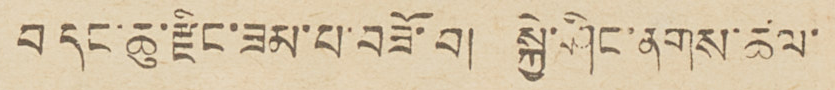བ དང་ཆུ་རྫིང་ཟམ་པ་བཟོ་བ། སྐྱེ་ཤིང་ནགས་ཚལ་
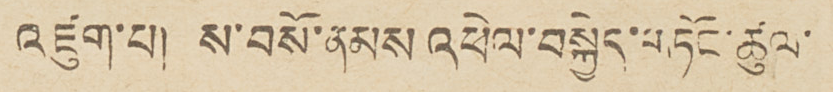འཛུག་པ། ས་བསོ་ནམས འཕེལ་བསྐྱེད་གཏོང་ཚུལ་
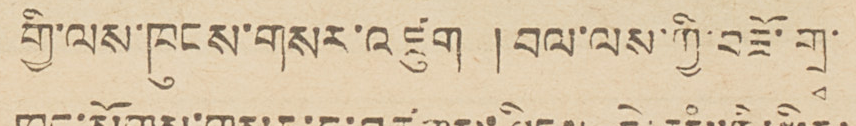གྱི་ལས་ཁུངས་གསར་འཛུག །བལ་ལས་ཀྱི་བཟོ་གྲྭ་
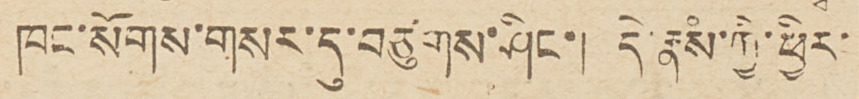ཁང་སོགས་གསར་དུ་བཙུགས་ཤིང་། དེ་རྣསཾ་ཀྱི་ཕྱིར་
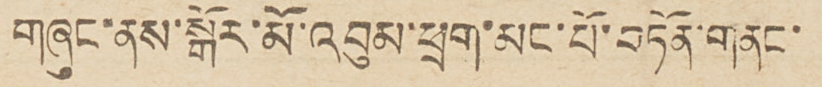གཞུང་ནས་སྒོར་མོ་འབུམ་ཕྲག་མང་པོ་བཏོན་གནང་
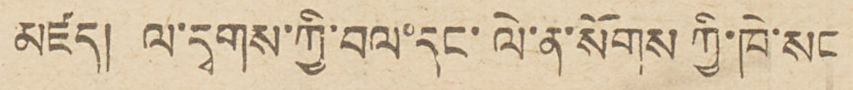མཛད། ལ་དྭགས་ཀྱི་བལ་དང་ལེ་ན་སོགས ཀྱི་ཁེ་སང
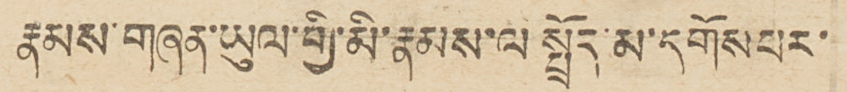རྣམས་གཞན་ཡུལ་གྱི་མི་རྣམས་ལ སྤྲོད་མ་དགོས པར་
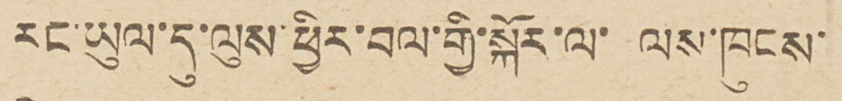རང་ཡུལ་དུ་ལུས་ཕྱིར་བལ་གྱི་སྐོར་ལ་ ལས་ཁུངས་
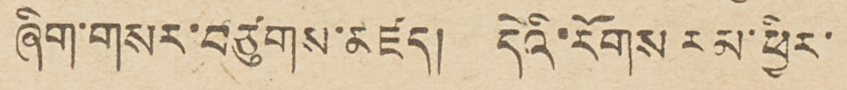ཞིག་གསར་བཙུགས་མཛད། དེའི་རོགས རམ་ཕྱིར་
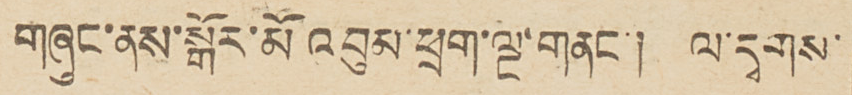གཞུང་ནས་སྒོར་མོ འབུམ་ཕྲག་ལྔ་གནང་། ལ་དྭགས་
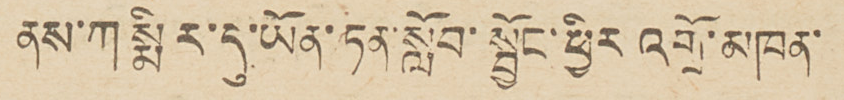ནས་ཀསྨིར་དུ་ཡོན་ཏན་སློབ་སྦྱོང་ཕྱིར འགྲོ་མཁན་
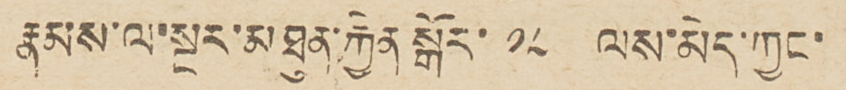རྣམས་ལ་སྔར་མཐུན་རྐྱེན སྒོར་ ༡༨ ལས་མེད་ཀྱང་
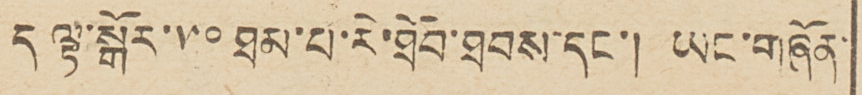ད ལྟ་སྒོར་༥༠ ཐམ་པ་རེ་ཐོབ་ཐབས་དང་། ཡང་གཞོན་
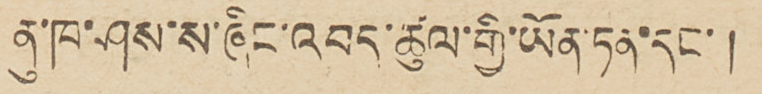ནུ་ཁ་ཤས་ས་ཞིང་འབད་ཚུལ་གྱི་ཡོན་ཏན་དང་།
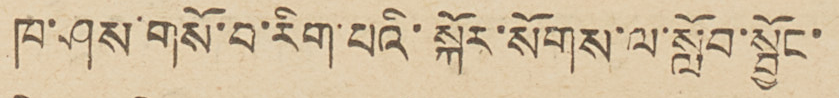ཁ་ཤས་གསོ་བ་རིག་པའི་སྐོར་སོགས་ལ་སློབ་སྦྱོང་
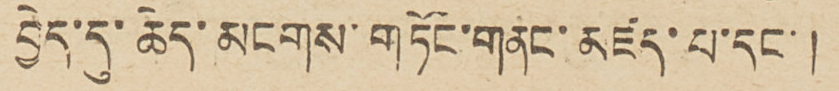བྱེད་དུ་ཆེད་མངགས་གཏོང་གནང་མཛད་པ་དང་།
